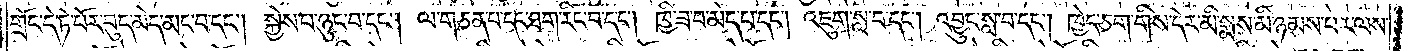གྲོང་དེ་ཏེ་པོར་བུད་མེད་མང་བ་དང༌། སྐྱེས་པ་ཉུང་བ་དང༌། ལ་གཅན་པ་དང་ཐག་རིང་བ་དང༌། ཁྱི་ཟ་བ་མེད་པ་དང༌། འཇུག་སླ་བ་དང༌། འབྱུང་སླ་བ་དང༌། ཁྱེད་ཅག་གིས་དེར་མི་སྨས་མི་ཉམས་པར་ལས་
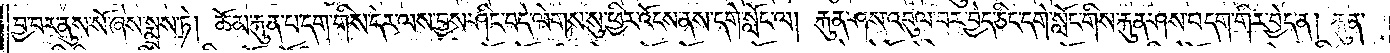བྱ་བར་ནུས་སོ་ཞེས་སྨྲས་ཏེ། ཆོམ་རྐུན་པ་དག་གིས་དེར་ལས་བྱས་ཤིང་བདེ་ལེགས་སུ་ཕྱིར་འོངས་ནས་དགེ་སློང་ལ། རྐུན་ཤས་འབུལ་བར་བྱེད་ཅིང་དགེ་སློང་གིས་རྐུན་ཤས་བདག་གིས་བྱེད་ན། རྐུན་
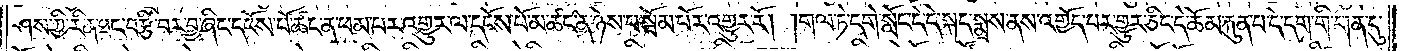ཤས་ཀྱི་རིན་ཐང་བརྩི་བར་བྱ་ཞིང་དངོས་པོ་ཚང་ན་ཕམ་པར་འགྱུར་ལ་དངོས་པོ་མ་ཚང་ན་ཉེས་པ་སྦོམ་པོར་འགྱུར་རོ། །གལ་ཏེ་དགེ་སློང་དེ་དེ་སྐད་སྨྲས་ནས་འགྱོད་པར་གྱུར་ཅིང་དེ་ཆོམ་རྐུན་པ་དེ་དག་གི་གན་དུ་
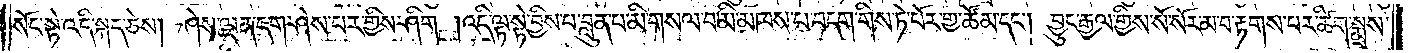སོང་སྟེ་འདི་སྐད་ཅེས། ཤེས་ལྡན་དག་ཤེས་པར་གྱིས་ཤིག །འདི་ལྟ་སྟེ་བྱིས་པ་བླུན་པ་མི་གསལ་བ་མི་མཁས་པ་བདག་གིས་ཏེ་པོར་གྱ་ཚོམ་དང༌། བྱུང་རྒྱལ་གྱིས་སོ་སོར་མ་བ་རྟགས་པར་ཚིག་སྨྲས་
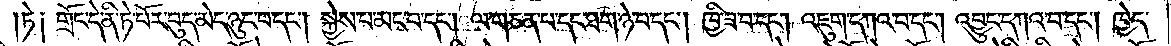ཏེ༑ གྲོང་དེ་ནི་ཏེ་པོར་བུད་མེད་ཉུང་བ་དང༌། སྐྱེས་པ་མང་བ་དང༌། ལ་གཅན་པ་དང་ཐག་ཉེ་བ་དང༌། ཁྱི་ཟ་བ་དང༌། འཇུག་དཀའ་བ་དང༌། འབྱུང་དཀའ་བ་དང༌། ཁྱེད་
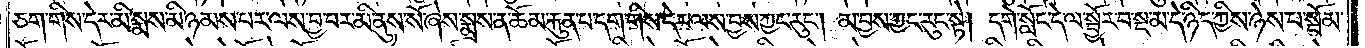ཅག་གིས་དེར་མི་སྨས་མི་ཉམས་པར་ལས་བྱ་བར་མི་ནུས་སོ་ཞེས་སྨྲས་ན་ཆོམ་རྐུན་པ་དག་གིས་དེར་ལས་བྱས་ཀྱང་རུང༌། མ་བྱས་ཀྱང་རུང་སྟེ། དགེ་སློང་དེ་ལ་སྦྱོར་བ་སྔ་མ་དེ་ཉིད་ཀྱིས་ཉེས་པ་སྦོམ་
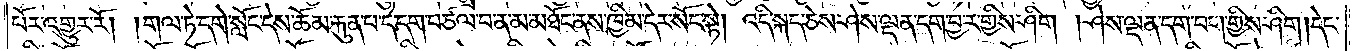པོར་འགྱུར་རོ། །གལ་ཏེ་དགེ་སློང་དེས་ཆོམ་རྐུན་པ་དེ་དག་བཙལ་བ་ན་མ་མཐོང་ནས་ཁྱིམ་དེར་སོང་སྟེ། འདི་སྐད་ཅེས་ཤེས་ལྡན་དག་བྱར་གྱིས་ཤིག །ཤེས་ལྡན་དག་བག་གྱིས་ཤིག །དེང་
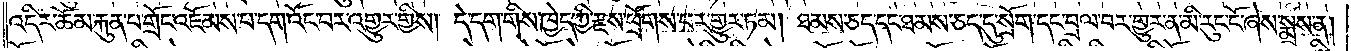འདིར་ཆོམ་རྐུན་པ་གྲོང་འཇོམས་པ་དག་འོང་བར་འགྱུར་གྱིས། དེ་དག་གིས་ཁྱེད་ཀྱི་རྫས་ཕྲོགས་པར་གྱུར་ཏམ། ཐམས་ཅད་དང་ཐམས་ཅད་དུ་སྲོག་དང་བྲལ་བར་གྱུར་ན་མི་རུང་ངོ་ཞེས་སྨྲས་ན།
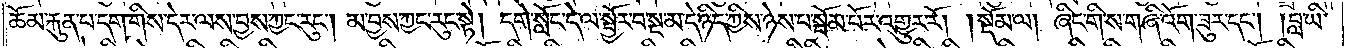ཆོམ་རྐུན་པ་དག་གིས་དེར་ལས་བྱས་ཀྱང་རུང༌། མ་བྱས་ཀྱང་རུང་སྟེ། དགེ་སློང་དེ་ལ་སྦྱོར་བ་སྔ་མ་དེ་ཉིད་ཀྱིས་ཉེས་པ་སྦོམ་པོར་འགྱུར་རོ། །སྡོམ་ལ། ཞིང་གི་ས་གཞི་འོག་ཟུར་དང༌། །བླ་ཡི་
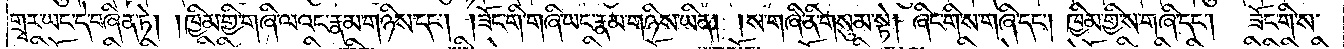གྲྭར་ཡང་དེ་བཞིན་ཏེ། །ཁྱིམ་གྱི་གཞི་ལའང་རྣམ་གཉིས་དང༌། །ཟོང་གི་གཞི་ཡང་རྣམ་གཉིས་ཡིན། །ས་གཞི་ནི་གསུམ་སྟེ། ཞིང་གི་ས་གཞི་དང༌། ཁྱིམ་གྱི་ས་གཞི་དང༌།<gap>ཟོང་གི་ས་
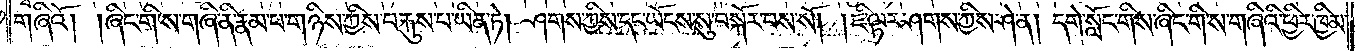གཞིའོ། །ཞིང་གི་ས་གཞི་ནི་རྣམ་པ་གཉིས་ཀྱིས་བརྐུས་པ་ཡིན་ཏེ། ཤགས་ཀྱིས་དང་ཡོངས་སུ་བསྐོར་བས་སོ། །ཇི་ལྟར་ཤགས་ཀྱིས་ཤེ་ན། དགེ་སློང་གིས་ཞིང་གི་ས་གཞིའི་ཕྱིར་ཁྱིམ་
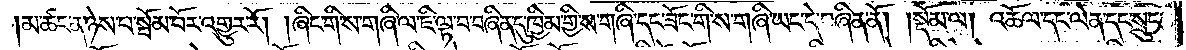མ་ཚང་ན་ཉེས་པ་སྦོམ་པོར་འགྱུར་རོ། །ཞིང་གི་ས་གཞི་ལ་ཇི་ལྟ་བ་བཞིན་དུ་ཁྱིམ་གྱི་ས་གཞི་དང་ཟོང་གི་ས་གཞི་ཡང་དེ་བཞིན་ནོ། །སྡོམ་ལ། འཆོལ་དང་ལེན་དང་སྲུང་
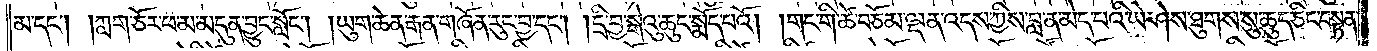མ་དང༌། །ཀླག་ཅོར་ཕ་མ་མདུན་བྱུང་སློང༌། །ཡུག་ཆེན་རྒན་གཞོན་རུང་བྱ་དང༌། །དྲི་བྱ་སྒེའུ་ཆུང་སྨོད་པའོ། །གང་གི་ཚེ་བཅོམ་ལྡན་འདས་ཀྱིས་བླ་ན་མེད་པའི་ཡེ་ཤེས་ཐུགས་སུ་ཆུད་ཅིང་བསྟན་
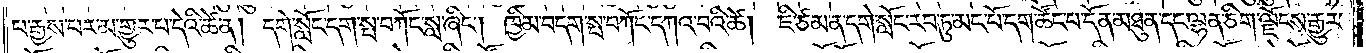པ་རྒྱས་པར་མ་གྱུར་པ་དེའི་ཚེ་ན། དགེ་སློང་དག་སྤ་བཀོང་སླ་ཞིང༌། ཁྱིམ་བདག་སྤ་བཀོང་དཀའ་བའི་ཚེ། ཇི་ཙམ་ན་དགེ་སློང་རབ་ཏུ་མང་པོ་དག་ཚོང་པ་དོན་མཐུན་དང་ལྷན་ཅིག་ལྗོངས་རྒྱུར་
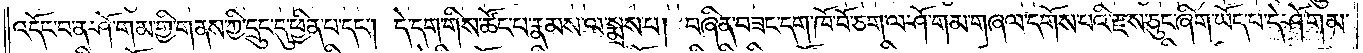འདོང་བ་ན་ཤོ་གམ་གྱི་གནས་ཀྱི་དྲུང་དུ་ཕྱིན་པ་དང༌། དེ་དག་གིས་ཚོང་པ་རྣམས་ལ་སྨྲས་པ། བཞིན་བཟང་དག་ཁོ་བོ་ཅག་ལ་ཤོ་གམ་གཞལ་དགོས་པའི་རྫས་ཅུང་ཞིག་ཡོད་པ་དེ་ཤོ་གམ་
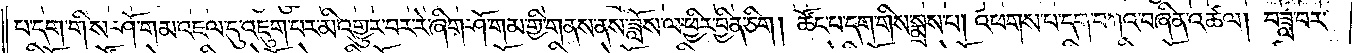པ་དག་གིས་ཤོ་གམ་འཇལ་དུ་འཇུག་པར་མི་འགྱུར་བར་རེ་ཞིག་ཤོ་གམ་གྱི་གནས་ནས་ཟློས་ལ་ཕྱིར་བྱིན་ཅིག། ཚོང་པ་དག་གིས་སྨྲས་པ། འཕགས་པ་དག་བཀའ་བཞིན་འཚལ། བཟླ་བར་
